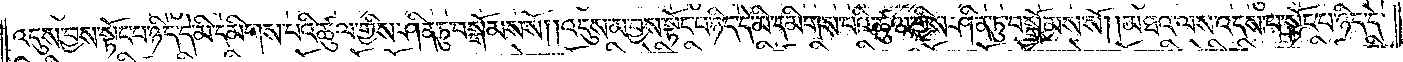འདུས་བྱས་སྟོང་པ་ཉིད་དེ་མི་དམིགས་པའི་ཚུལ་གྱིས་ཤིན་ཏུ་བསྒོམས་སོ། །འདུས་མ་བྱས་སྟོང་པ་ཉིད་དེ་མི་དམིགས་པའི་ཚུལ་གྱིས་ཤིན་ཏུ་བསྒོམས་སོ། །མཐའ་ལས་འདས་པ་སྟོང་པ་ཉིད་དེ་
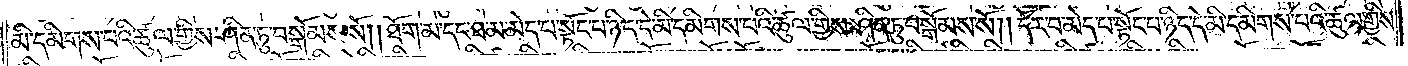མི་དམིགས་པའི་ཚུལ་གྱིས་ཤིན་ཏུ་བསྒོམས་སོ། །ཐོག་མ་དང་ཐ་མ་མེད་པ་སྟོང་པ་ཉིད་དེ་མི་དམིགས་པའི་ཚུལ་གྱིས་ཤིན་ཏུ་བསྒོམས་སོ། །དོར་བ་མེད་པ་སྟོང་པ་ཉིད་དེ་མི་དམིགས་པའི་ཚུལ་གྱིས་
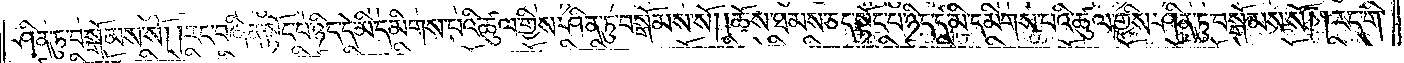ཤིན་ཏུ་བསྒོམས་སོ། །རང་བཞིན་སྟོང་པ་ཉིད་དེ་མི་དམིགས་པའི་ཚུལ་གྱིས་ཤིན་ཏུ་བསྒོམས་སོ། །ཆོས་ཐམས་ཅད་སྟོང་པ་ཉིད་དེ་མི་དམིགས་པའི་ཚུལ་གྱིས་ཤིན་ཏུ་བསྒོམས་སོ། །རང་གི་
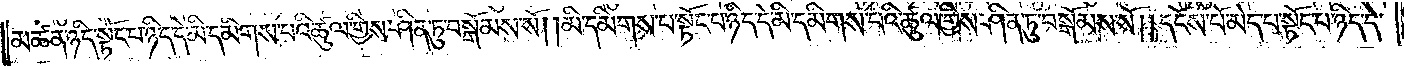མཚན་ཉིད་སྟོང་པ་ཉིད་དེ་མི་དམིགས་པའི་ཚུལ་གྱིས་ཤིན་ཏུ་བསྒོམས་སོ། །མི་དམིགས་པ་སྟོང་པ་ཉིད་དེ་མི་དམིགས་པའི་ཚུལ་གྱིས་ཤིན་ཏུ་བསྒོམས་སོ། །དངོས་པོ་མེད་པ་སྟོང་པ་ཉིད་དེ་
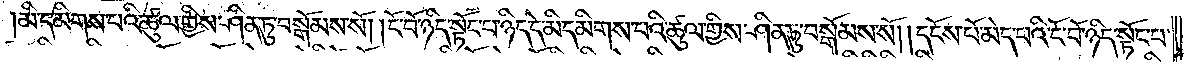མི་དམིགས་པའི་ཚུལ་གྱིས་ཤིན་ཏུ་བསྒོམས་སོ། །ངོ་བོ་ཉིད་སྟོང་པ་ཉིད་དེ་མི་དམིགས་པའི་ཚུལ་གྱིས་ཤིན་ཏུ་བསྒོམས་སོ། །དངོས་པོ་མེད་པའི་ངོ་བོ་ཉིད་སྟོང་པ་
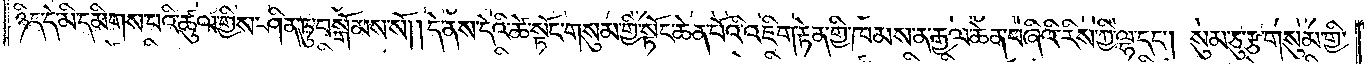ཉིད་དེ་མི་དམིགས་པའི་ཚུལ་གྱིས་ཤིན་ཏུ་བསྒོམས་སོ། །དེ་ནས་དེའི་ཚེ་སྟོང་གསུམ་གྱི་སྟོང་ཆེན་པོའི་འཇིག་རྟེན་གྱི་ཁམས་ན་རྒྱལ་ཆེན་བཞིའི་རིས་ཀྱི་ལྷ་དང༌། སུམ་ཅུ་རྩ་གསུམ་གྱི་
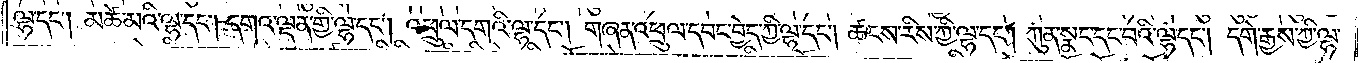ལྷ་དང༌། མཚེ་མའི་ལྷ་དང༌། དགའ་ལྡན་གྱི་ལྷ་དང༌། འཕྲུལ་དགའི་ལྷ་དང༌། གཞན་འཕྲུལ་དབང་བྱེད་ཀྱི་ལྷ་དང༌། ཚངས་རིས་ཀྱི་ལྷ་དང༌། ཀུན་སྣང་དང་པའི་ལྷ་དང༌། དགེ་རྒྱས་ཀྱི་ལྷ་
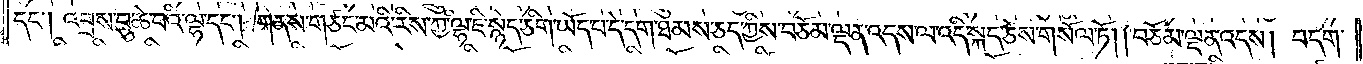དང༌། འབྲས་བུ་ཆེ་བའི་ལྷ་དང༌། གནས་གཙང་མའི་རིས་ཀྱི་ལྷ་ཇི་སྙེད་ཅིག་ཡོད་པ་དེ་དག་ཐམས་ཅད་ཀྱིས་བཅོམ་ལྡན་འདས་ལ་འདི་སྐད་ཅེས་གསོལ་ཏོ། །བཅོམ་ལྡན་འདས། བདག་
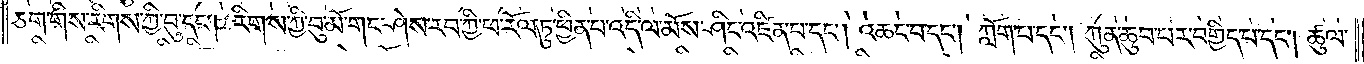ཅག་གིས་རིགས་ཀྱི་བུ་དང༌། རིགས་ཀྱི་བུ་མོ་གང་ཤེས་རབ་ཀྱི་ཕ་རོལ་ཏུ་ཕྱིན་པ་འདི་ལ་མོས་ཤིང་འཛིན་པ་དང༌། འཆང་བ་དང༌། ཀློག་པ་དང༌། ཀུན་ཆུབ་པར་བགྱིད་པ་དང༌། ཚུལ་
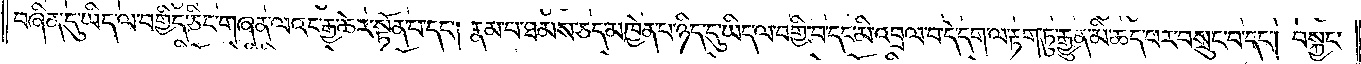བཞིན་དུ་ཡིད་ལ་བགྱིད་ཅིང༌། གཞན་ལའང་རྒྱ་ཆེར་སྟོན་པ་དང༌། རྣམ་པ་ཐམས་ཅད་མཁྱེན་པ་ཉིད་དུ་ཡིད་ལ་བགྱི་བ་དང་མི་འབྲལ་བ་དེ་དག་ལ་རྟག་ཏུ་རྒྱུན་མི་ཚད་པར་བསྲུང་བ་དང༌། བསྐྱང་
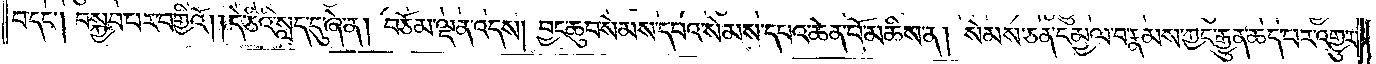བ་དང༌། བསྐྱབ་པར་བགྱིའོ། །དེ་ཅིའི་སླད་དུ་ཞེ་ན། བཅོམ་ལྡན་འདས། བྱང་ཆུབ་སེམས་དཔའ་སེམས་དཔའ་ཆེན་པོ་མཆིས་ན། སེམས་ཅན་དམྱལ་བ་རྣམས་ཀྱང་རྒྱུན་ཆད་པར་འགྱུར་
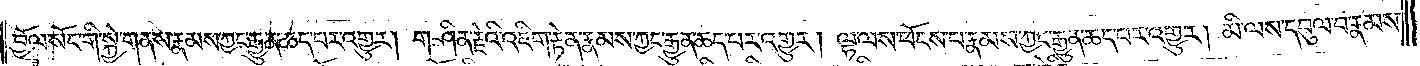བྱོལ་སོང་གི་སྐྱེ་གནས་རྣམས་ཀྱང་རྒྱུན་ཚད་པར་འགྱུར། གཤིན་རྗེའི་འཇིག་རྟེན་རྣམས་ཀྱང་རྒྱུན་ཚད་པར་འགྱུར། ལྷ་ལས་ཕོངས་པ་རྣམས་ཀྱང་རྒྱུན་ཚད་པར་འགྱུར། མི་ལས་དབུལ་བ་རྣམས་
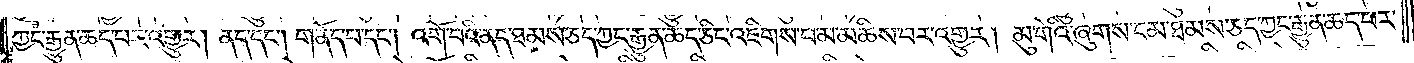ཀྱང་རྒྱུན་ཆད་པར་འགྱུར། ནད་དང༌། གནོད་པ་དང༌། འགོ་བའི་ནད་ཐམས་ཅད་ཀྱང་རྒྱུན་ཚད་ཅིང་འཇིགས་པ་མ་མཆིས་པར་འགྱུར། མུ་གེའི་ཞུགས་ངམ་ཐམས་ཅད་ཀྱང་རྒྱུན་ཆད་པར་
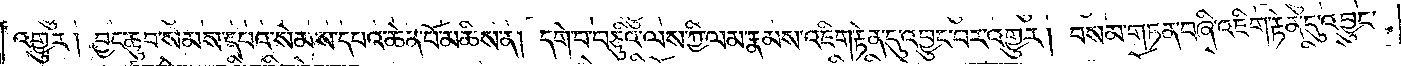འགྱུར། བྱང་ཆུབ་སེམས་དཔའ་སེམས་དཔའ་ཆེན་པོ་མཆིས་ན། དགེ་བ་བཅུའི་ལས་ཀྱི་ལམ་རྣམས་འཇིག་རྟེན་དུ་འབྱུང་བར་འགྱུར། བསམ་གཏན་བཞི་འཇིག་རྟེན་དུ་འབྱུང་
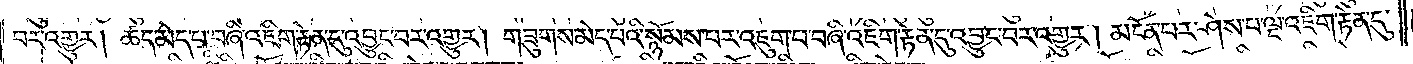བར་འགྱུར། ཚད་མེད་པ་བཞི་འཇིག་རྟེན་དུ་འབྱུང་བར་འགྱུར། གཟུགས་མེད་པའི་སྙོམས་པར་འཇུག་པ་བཞི་འཇིག་རྟེན་དུ་འབྱུང་བར་འགྱུར། མངོན་པར་ཤེས་པ་ལྔ་འཇིག་རྟེན་དུ་
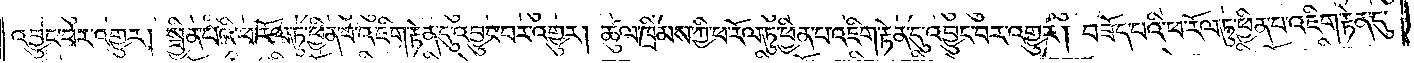འབྱུང་བར་འགྱུར། སྦྱིན་པའི་ཕ་རོལ་ཏུ་ཕྱིན་པ་འཇིག་རྟེན་དུ་འབྱུང་བར་འགྱུར། ཚུལ་ཁྲིམས་ཀྱི་ཕ་རོལ་ཏུ་ཕྱིན་པ་འཇིག་རྟེན་དུ་འབྱུང་བར་འགྱུར། བཟོད་པའི་ཕ་རོལ་ཏུ་ཕྱིན་པ་འཇིག་རྟེན་དུ་
